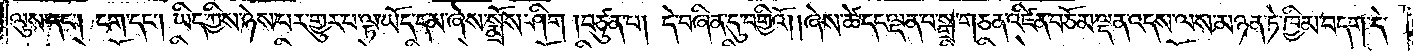ལུས་དང༌། ངག་དང༌། ཡིད་ཀྱིས་ཉེས་པར་གྱུར་པ་ལྟ་ཡོད་དམ་ཞེས་སྨྲོས་ཤིག །བཙུན་པ། དེ་བཞིན་དུ་བགྱིའོ། །ཞེས་ཚེ་དང་ལྡན་པ་སྒྲ་གཅན་འཛིན་བཅོམ་ལྡན་འདས་ལས་མཉན་ཏེ་ཁྱིམ་བདག་དེ་
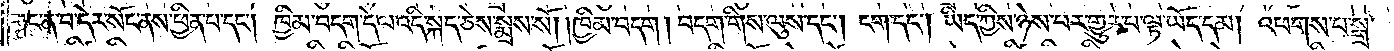གང་ན་བ་དེར་སོང་ནས་ཕྱིན་པ་དང༌། ཁྱིམ་བདག་དེ་ལ་འདི་སྐད་ཅེས་སྨྲས་སོ། །ཁྱིམ་བདག །བདག་གིས་ལུས་དང༌། ངག་དང༌། ཡིད་ཀྱིས་ཉེས་པར་གྱུར་པ་ལྟ་ཡོད་དམ། འཕགས་པ་སྒྲ་
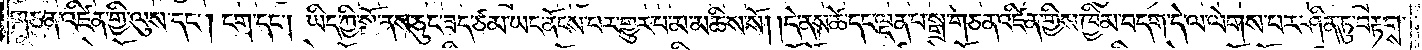གཅན་འཛིན་གྱི་ལུས་དང༌། ངག་དང༌། ཡིད་ཀྱི་སྒོ་ནས་ཅུང་ཟད་ཙམ་ཡང་ནོངས་པར་གྱུར་པ་མ་མཆིས་སོ། །དེ་ནས་ཚེ་དང་ལྡན་པ་སྒྲ་གཅན་འཛིན་གྱིས་ཁྱིམ་བདག་དེ་ལ་ལེགས་པར་ཤིན་ཏུ་བརྟགས་
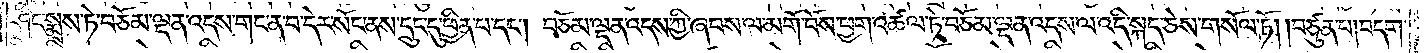ཤིང་སྨྲས་ཏེ་བཅོམ་ལྡན་འདས་གང་ན་བ་དེར་སོང་ནས་དྲུང་དུ་ཕྱིན་པ་དང༌། བཅོམ་ལྡན་འདས་ཀྱི་ཞབས་ལ་མགོ་བོས་ཕྱག་འཚལ་ཏེ་བཅོམ་ལྡན་འདས་ལ་འདི་སྐད་ཅེས་གསོལ་ཏོ། །བཙུན་པ། བདག་
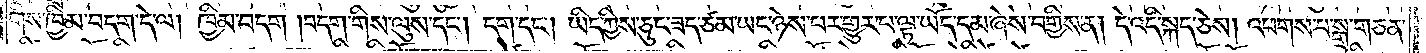གིས་ཁྱིམ་བདག་དེ་ལ། ཁྱིམ་བདག །བདག་གིས་ལུས་དང༌། ངག་དང༌། ཡིད་ཀྱིས་ཅུང་ཟད་ཙམ་ཡང་ཉེས་པར་གྱུར་པ་ལྟ་ཡོད་དམ་ཞེས་བགྱིས་ན། དེ་འདི་སྐད་ཅེས། འཕགས་པ་སྒྲ་གཅན་
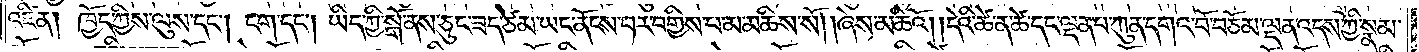འཛིན། ཁྱོད་ཀྱིས་ལུས་དང༌། ངག་དང༌། ཡིད་ཀྱི་སྒོ་ནས་ཅུང་ཟད་ཙམ་ཡང་ནོངས་པར་བགྱིས་པ་མ་མཆིས་སོ། །ཞེས་མཆིའོ། །དེའི་ཚེ་ན་ཚེ་དང་ལྡན་པ་ཀུན་དགའ་བོ་བཅོམ་ལྡན་འདས་ཀྱི་སྣམ་
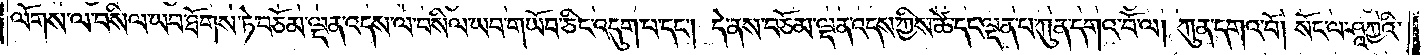ལོགས་ལ་བསིལ་ཡབ་ཐོགས་ཏེ་བཅོམ་ལྡན་འདས་ལ་བསིལ་ཡབ་གཡོབ་ཅིང་འདུག་པ་དང༌། དེ་ནས་བཅོམ་ལྡན་འདས་ཀྱིས་ཚེ་དང་ལྡན་པ་ཀུན་དགའ་བོ་ལ། ཀུན་དགའ་བོ། སོང་ལ་ཤཱཀྱའི་
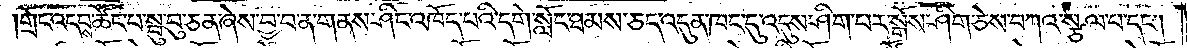གྲོང་འདབས་ཚོང་པ་སྤུ་བུ་ཅན་ཞེས་བྱ་བ་ན་གནས་ཤིང་འཁོད་པའི་དགེ་སློང་ཐམས་ཅད་འདུན་ཁང་དུ་འདུས་ཤིག་པར་སྒོས་ཤིག་ཅེས་བཀའ་སྩལ་པ་དང༌།
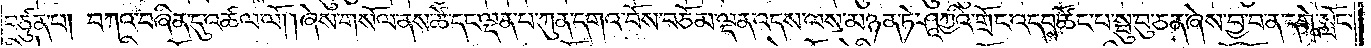བཙུན་པ། བཀའ་བཞིན་དུ་འཚལ་ལོ། །ཞེས་གསོལ་ནས་ཚེ་དང་ལྡན་པ་ཀུན་དགའ་བོས་བཅོམ་ལྡན་འདས་ལས་མཉན་ཏེ་ཤཱཀྱའི་གྲོང་འདབས་ཚོང་པ་སྤུ་བུ་ཅན་ཞེས་བྱ་བ་ན་དགེ་སློང་
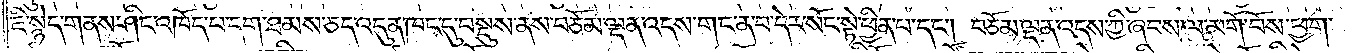ཇི་སྙེད་གནས་ཤིང་འཁོད་པ་དག་ཐམས་ཅད་འདུན་ཁང་དུ་བསྡུས་ནས་བཅོམ་ལྡན་འདས་གང་ན་བ་དེར་སོང་སྟེ་ཕྱིན་པ་དང༌། བཅོམ་ལྡན་འདས་ཀྱི་ཞབས་ལ་མགོ་བོས་ཕྱག་
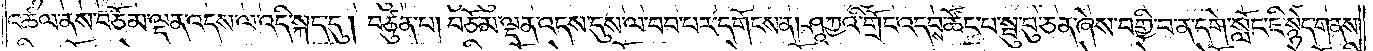འཚལ་ནས་བཅོམ་ལྡན་འདས་ལ་འདི་སྐད་དུ། བཙུན་པ། བཅོམ་ལྡན་འདས་དུས་ལ་བབ་པར་དགོངས་ན། ཤཱཀྱའི་གྲོང་འདབས་ཚོང་པ་སྤུ་བུ་ཅན་ཞེས་བགྱི་བ་ན་དགེ་སློང་ཇི་སྙེད་གནས་
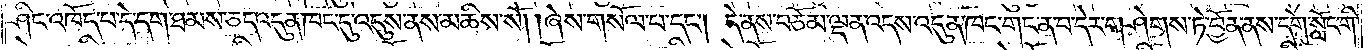ཤིང་འཁོད་པ་དེ་དག་ཐམས་ཅད་འདུན་ཁང་དུ་འདུས་ནས་མཆིས་སོ། །ཞེས་གསོལ་པ་དང༌། དེ་ནས་བཅོམ་ལྡན་འདས་འདུན་ཁང་གང་ན་བ་དེར་གཤེགས་ཏེ་བྱོན་ནས་དགེ་སློང་གི་
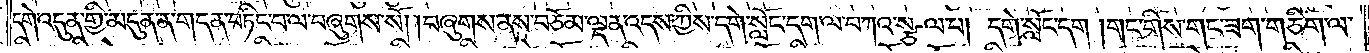དགེ་འདུན་གྱི་མདུན་ན་གདན་བཏིང་བ་ལ་བཞུགས་སོ། །བཞུགས་ནས་བཅོམ་ལྡན་འདས་ཀྱིས་དགེ་སློང་དག་ལ་བཀའ་སྩལ་པ། དགེ་སློང་དག །གང་གིས་གང་ཟག་གཅིག་ལ་
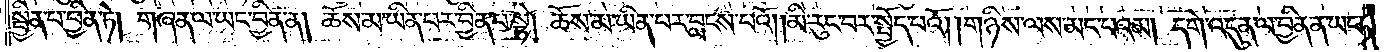སྦྱིན་པ་བྱིན་ཏེ། གཞན་ལ་ཡང་བྱིན་ན། ཆོས་མ་ཡིན་པར་བྱིན་པ་སྟེ། ཆོས་མ་ཡིན་པར་བླངས་པའོ། །མི་རུང་བར་སྤྱོད་པའོ། །གཉིས་ལས་མང་པའམ། དགེ་འདུན་ལ་བྱིན་ན་ཡང་
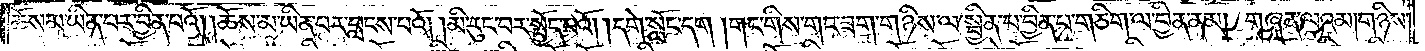ཆོས་མ་ཡིན་པར་བྱིན་པའོ། །ཆོས་མ་ཡིན་པར་བླངས་པའོ། །མི་རུང་བར་སྤྱོད་པའོ། །དགེ་སློང་དག །གང་གིས་གང་ཟག་གཉིས་ལ་སྦྱིན་པ་བྱིན་པ་གཅིག་ལ་བྱིན་ནམ། གཞན་ལའམ་གཉིས་
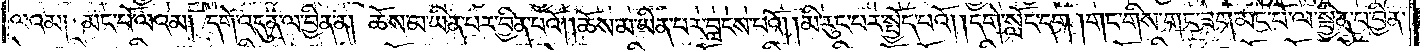ལའམ། མང་པོ་ལའམ། དགེ་འདུན་ལ་བྱིན་ན། ཆོས་མ་ཡིན་པར་བྱིན་པའོ། །ཆོས་མ་ཡིན་པར་བླངས་པའོ། །མི་རུང་པར་སྤྱོད་པའོ། །དགེ་སློང་དག །གང་གིས་གང་ཟག་མང་པོ་ལ་སྦྱིན་པ་བྱིན་
